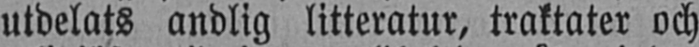utdelats andlig litteratur, traktater och
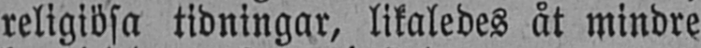religiösa tidningar, likaledes åt mindre
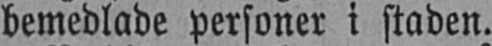bemedlade personer i staden.
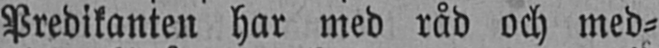Predikanten har med råd och med-
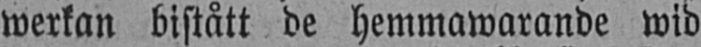werkan bistått de hemmawarande wid
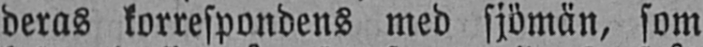deras korrespondens med sjömän, som
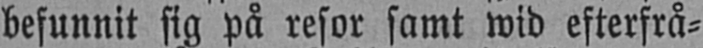befunnit sig på resor samt wid efterfrå-
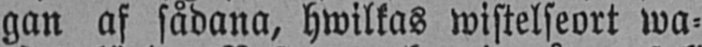gan af sådana, hwilkas wistelseort wa-
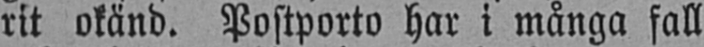rit okänd. Postporto har i många fall
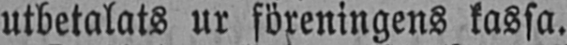utbetalats ur föreningens kassa.
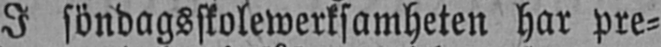I söndagsskolewerksamheten har pre-
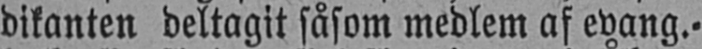dikanten deltagit såsom medlem af evang.-
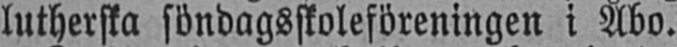lutherska söndagsskoleföreningen i Åbo.
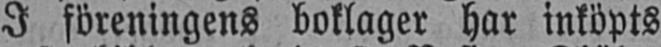I föreningens boklager har inköpts
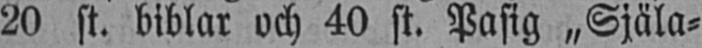20 st. biblar och 40 st. Pasig „ Själa-
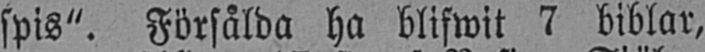spis". Försålda ha blifwit 7 biblar,
